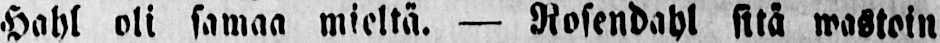Hahl oli samaa mieltä. — Rosendahl sitä wastoin
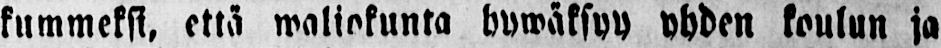kummeksi, että waliokunta hywäksyy yhden koulun ja
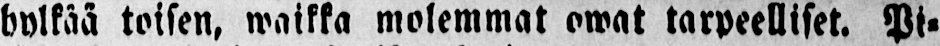hylkää toisen, waikka molemmat owat tarpeelliset. Pi-
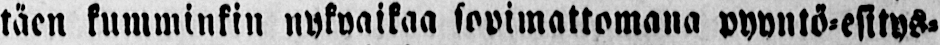täen kumminkin nykyaikaa sopimattomana pyyntö-esitys-
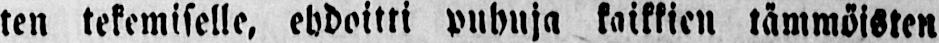ken tekemiselle, ehdoitti puhuja kaikkien tämmöisten
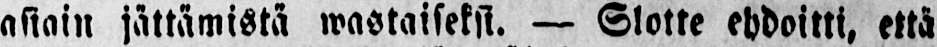asiain jättämistä wastaiseksi. — Slotte ehdoitti, että
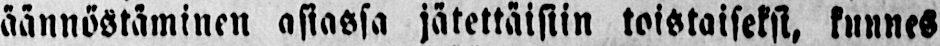äännöstäminen asiassa jätettäisiin toistaiseksi, kunnes
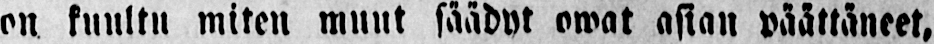on kuultu miten muut säädyt owat asian päättäneet,
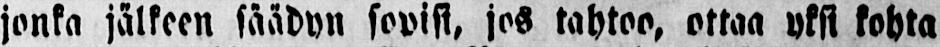jonka jälkeen säädyn sopisi, jos tahtoo, ottaa yksi kohta
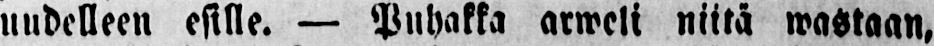uudelleen esille. — Puhakka arweli niitä wastaan,
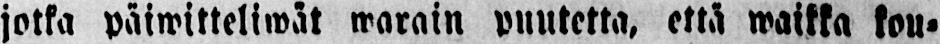jotka päiwitteliwät warain puutetta, että waikka kou-
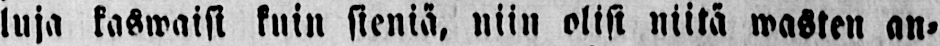luja kaswaisi kuin sieniä, niin olisi niitä wasten an-
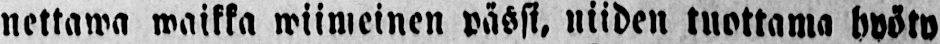nettawa waikka wiimeinen pässi, niiden tuottama hyöty
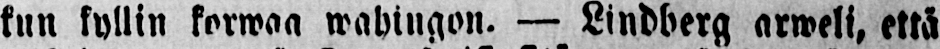kun kyllin korwaa wahingon. — Lindberg arweli, että
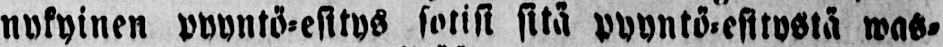nykyinen pyyntö-esitys sotisi sitä pyyntö-esitystä was-
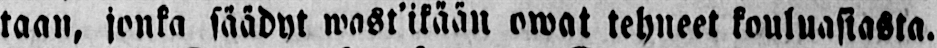taan, jonka säädyt wast’ikään owat tehneet kouluasiasta.
